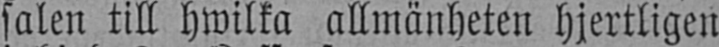salen till hwilka allmänheten hjertligen
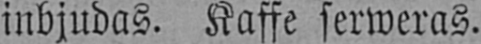inbjudas. Kaffe serweras.
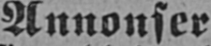Annonser
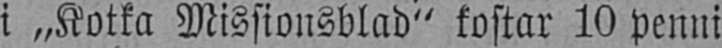i „Kotka Missionsblad" kostar 10 penni
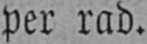per rad.
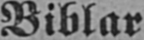Biblar
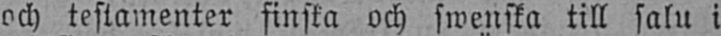och testamenter finska och swenska till salu i
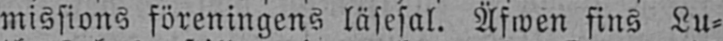missions föreningens läsesal. Äfwen fins Lu-
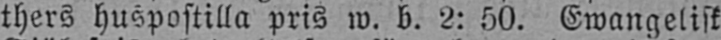thers huspostilla pris w. b. 2: 50. Ewangelisk
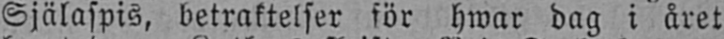Själaspis, betraktelser för hwar dag i året
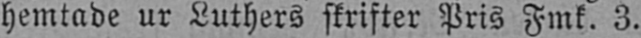hemtade ur Luthers skrifter Pris Fmk. 3.
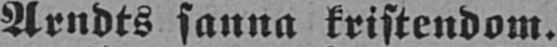Arndts sanna kristendom.
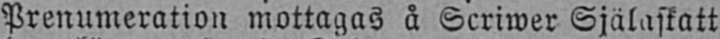Prenumeration mottagas å Scriwer Själaskatt
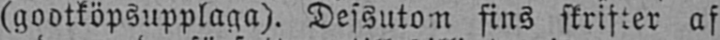(godtköpsupplaga). Dessutom fins skrifter af
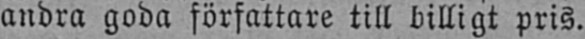andra goda författare till billigt pris.
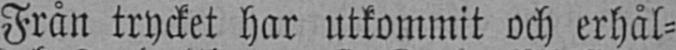Från trycket har utkommit och erhål-
